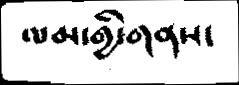ལམ་གྱི་གནས་
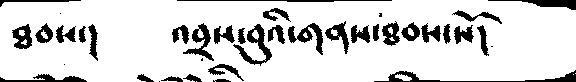ཐབས་།    འབྲས་བུའི་གནས་ཐབས་སོ།
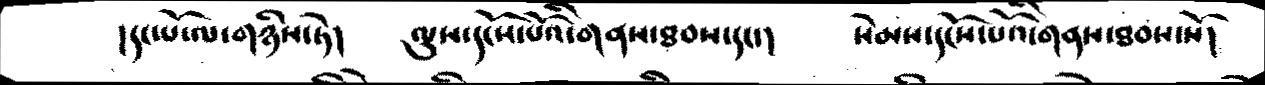།དང་པོ་ལ་གཉིས་ཏེ།  ལུས་དངོས་པོའི་གནས་ཐབས་དང་།   སེམས་དངོས་པོའི་གནས་ཐབས་སོ།
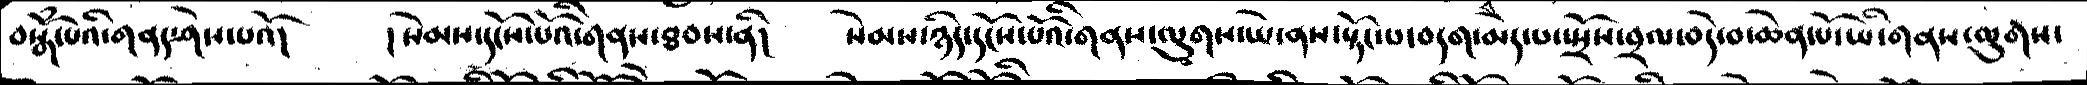བསྒོཾ་པའི་གནད་ཤེས་པའོ།   །སེམས་དངོས་པོའི་གནས་ཐབས་ནི་།  སེམས་ཉིད་དངོས་པོའི་གནས་ལུགས་ཡེ་ནས་སྟོང་པ་བདག་མེད་པ་སྤྲོས་བྲལ་བདེ་བ་ཆེན་པོ་ཡི་གནས་ལུགས་
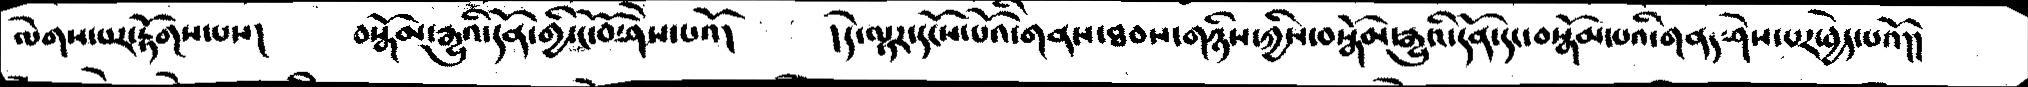ལེགས་པར་རྟོགས་པས།   བསྒོམ་རྒྱུའི་དོན་གྱི་ངོ་བོ་ཤེས་པའོ།   །དེ་ལྟར་དངོས་པོའི་གནས་ཐབས་གཉིས་ཀྱིས་བསྒོམ་རྒྱུའི་དོན་དང་བསྒོམ་པའི་གནད་ཤེས་པར་བྱེད་པའོ།།
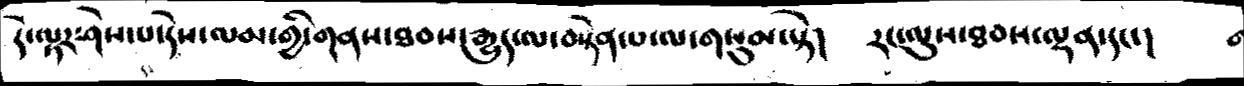དེ་ལྟར་ཤེས་པ་དེས་ལམ་གྱི་གནས་ཐབས་རྒྱུད་ལ་བསྟེན་པ་ལ་གསུམ་སྟེ།   རང་ལུས་ཐབས་ལྡན་དང་།
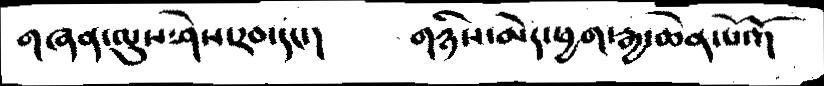གཞན་ལུས་ཤེས་རབ་དང་།    གཉིས་མེད་ཕྱག་རྒྱ་ཆེན་པོའོ།
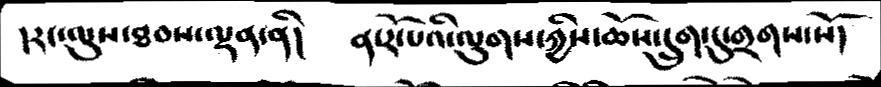།རང་ལུས་ཐབས་ལྡན་ནི།   ན་རོ་པའི་ལུགས་ཀྱིས་ཆོས་དྲུག་དུ་གྲགས་སོ།
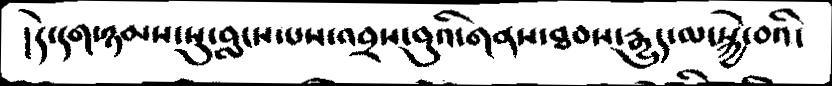།དེ་དག་ཉམས་སུ་བླངས་པས་འབྲས་བུའི་གནས་ཐབས་རྒྱུད་ལ་སྐྱེ་བའི་
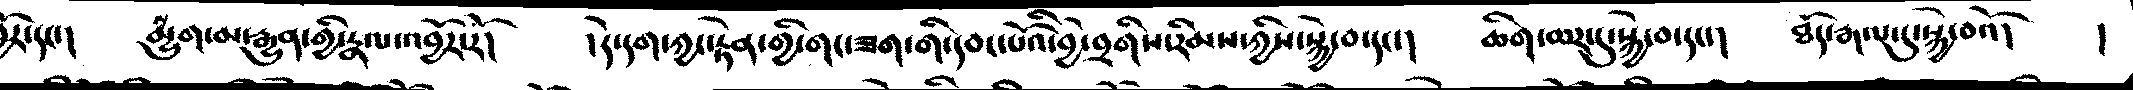བྱོར་དང་།  སྨྱུག་མ་རྒྱུན་གྱི་རྣལ་འབྱོར་རོ།   །དེ་དག་ཀྱང་རྟེན་གྱི་གང་ཟག་གི་དབང་པོའི་བྱེ་བྲགིས་རིམས་ཀྱིས་སྐྱེ་བ་དང་།   ཆིག་ཆར་དུ་སྐྱེ་བ་དང་།   ཐོད་རྒལ་དུ་སྐྱེ་བའོ།   །
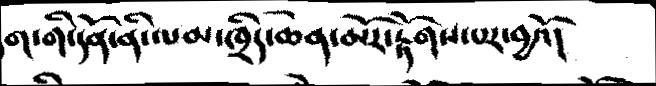ག་གི་དོན་ནི་ལམ་ཁྲིད་ཆེན་མོར་རྟོགས་པར་བྱའོ།
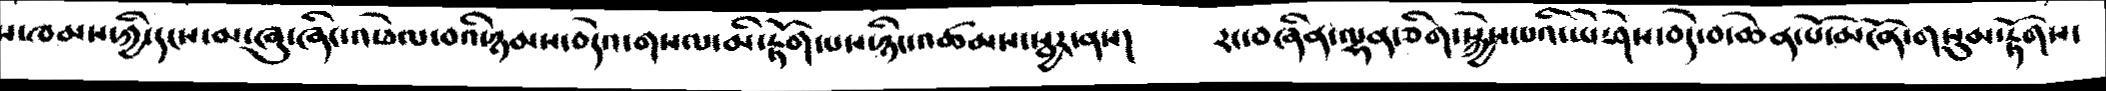ས་ཁམས་ཀྱི་དངས་མ་ཞུ་ཞིང་འཕེལ་བའི་ཉམས་བདེའ་གསལ་མི་རྟོག་པས་ཉིང་འཚམས་སྦྱར་ནས།   རང་བཞིན་ལྷན་ཅིག་སྐྱེས་པའི་ཡེ་ཤེས་བདེ་བ་ཆེན་པོ་མངོན་གསུམ་རྟོགས་
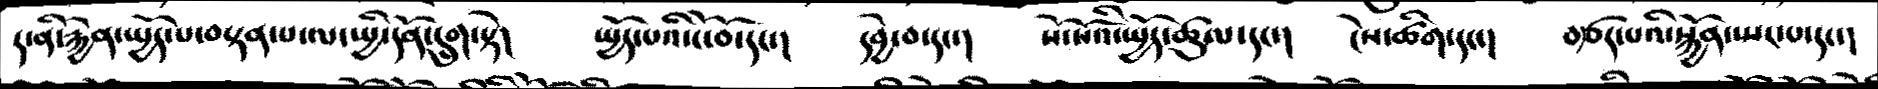ད་ནི་རྐྱེན་སྤྱོད་པ་བསྟན་པ་ལ་སྤྱི་དོན་དྲུག་སྟེ།   སྤྱོད་པའི་ངོ་བོ་དང་།   དབྱེ་བ་དང་།   སོ་སོའི་སྤྱོད་ཚུལ་དང་།   ངེས་ཚིག་དང་།   བརྩད་པའི་སྐྱོན་སྤང་པ་དང་།
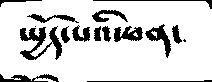སྤྱོད་པའི་ཕན་
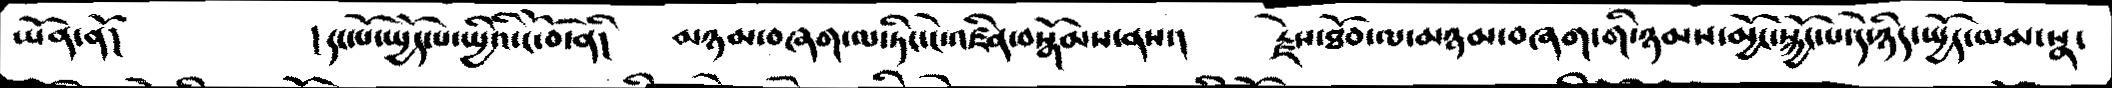ཡོན་ནོ།   །དང་པོ་སྤྱོད་པ་སྤྱིའི་ངོ་བོ་ནི།   མཉམ་བཞག་ལ་ཏིང་ངེ་འཛིན་བསྒོམས་ནས་།  རྗེས་ཐོབ་ལ་མཉམ་བཞག་གི་ཉམས་མྱོང་སྐྱོང་པ་དེ་ཉིད་སྤྱོད་ལམ་སྣ་
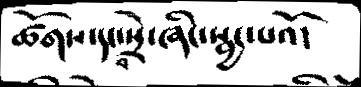ཚོགས་དང་བསྲེ་ཞིང་སྦྱང་པའོ།
